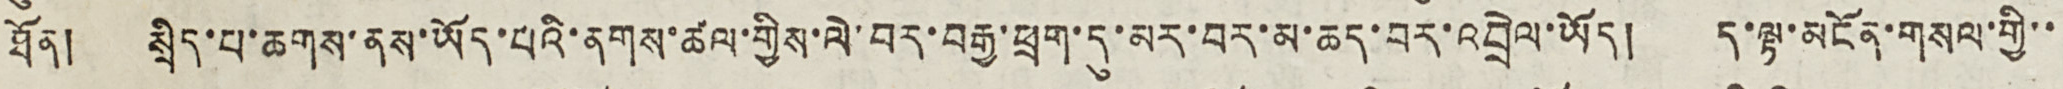ཐོན། སྲིད་པ་ཆགས་ནས་ཡོད་པའི་ནགས་ཚལ་གྱིས་ལེ་བར་བརྒྱ་ཕྲག་དུ་མར་བར་མ་ཆད་བར་འབྲེལ་ཡོད། ད་ལྟ་མངོན་གསལ་གྱི་་
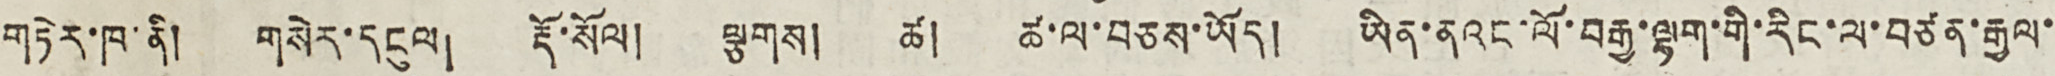གཏེར་ཁ་ནི། གསེར་དངུལ། རྡོ་སོལ། ལྕགས། ཚ། ཚ་ལ་བཅས་ཡོད། ཡིན་ནའང་ལོ་བརྒྱ་ལྷག་གི་རིང་ལ་བཙན་རྒྱལ་
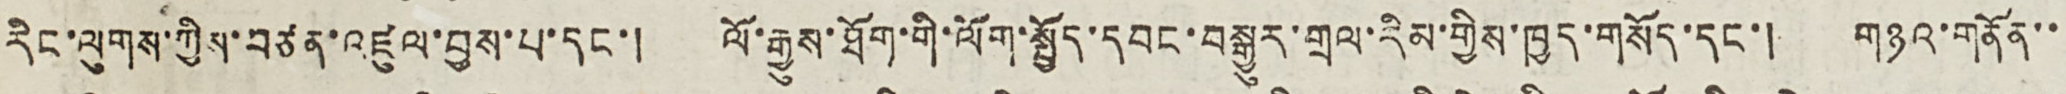རིང་ལུགས་ཀྱིས་བཙན་འཛུལ་བྱས་པ་དང་། ལོ་རྒྱུས་ཐོག་གི་ལོག་སྤྱོད་དབང་བསྒྱུར་གྲལ་རིམ་གྱིས་ཁྱད་གསོད་དང་། གཉའ་གནོན་་
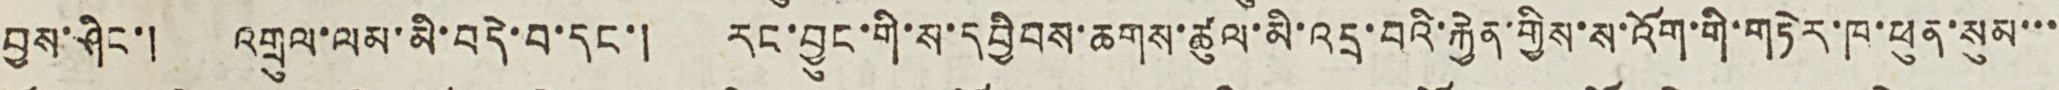བྱས་ཤིང་། འགྲུལ་ལམ་མི་བདེ་བ་དང་། རང་བྱུང་གི་ས་དབྱིབས་ཆགས་ཚུལ་མི་འདྲ་བའི་རྐྱེན་གྱིས་ས་འོག་གི་གཏེར་ཁ་ཕུན་སུམ་་་
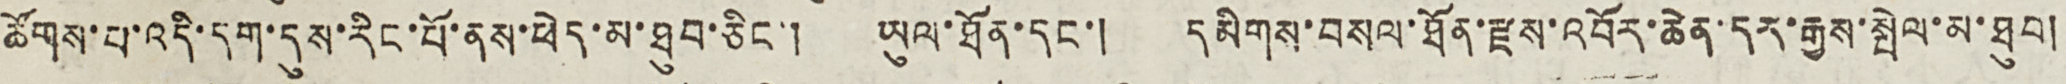ཚོགས་པ་འདི་དག་དུས་རིང་པོ་ནས་ཕེད་མ་ཐུབ་ཅིང་། ཡུལ་ཐོན་དང་། དམིགས་བསལ་ཐོན་རྫས་འབོར་ཆེན་དར་རྒྱས་སྤེལ་མ་ཐུབ།
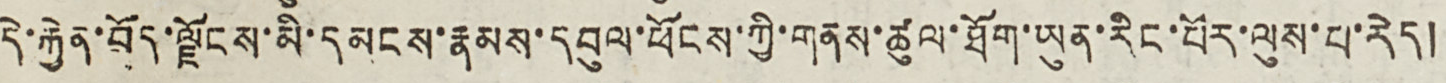དེ་རྐྱེན་བོད་ལྗོངས་མི་དམངས་རྣམས་དབུལ་ཕོངས་ཀྱི་གནས་ཚུལ་ཐོག་ཡུན་རིང་པོར་ལུས་པ་རེད།
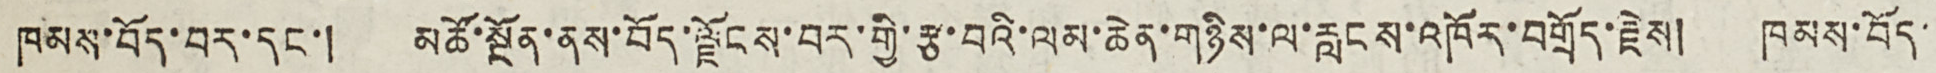ཁམས་བོད་བར་དང་། མཚོ་སྔོན་ནས་བོད་ལྗོངས་བར་གྱི་རྩ་བའི་ལམ་ཆེན་གཉིས་ལ་རླངས་འཁོར་བགྲོད་རྗེས། ཁམས་བོད་
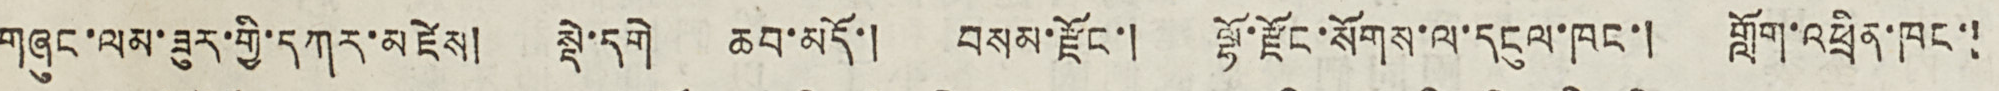གཞུང་ལམ་ཟུར་གྱི་དཀར་མཛེས། སྡེ་དགེ ཆབ་མདོ་། བསམ་རྫོང་། ལྷོ་རྫོང་སོགས་ལ་དངུལ་ཁང་། གློག་འཕྲིན་ཁང་།
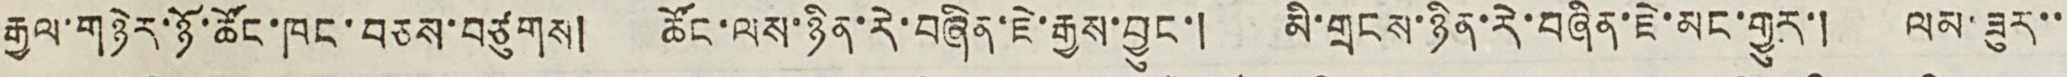རྒྱལ་གཉེར་ཉོ་ཚོང་ཁང་བཅས་བཙུགས། ཚོང་ལས་ཉིན་རེ་བཞིན་ཇེ་རྒྱས་བྱུང་། མི་གྲགས་ཉིན་རེ་བཞིན་ཇེ་མང་གྱུར་། ལམ་ཟུར་་
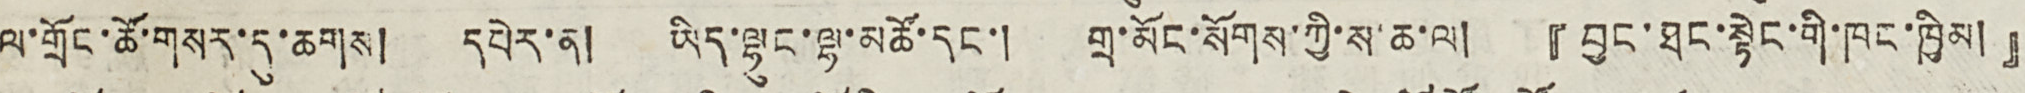ལ་གྲོང་ཚོ་གསར་དུ་ཆགས། དཔེར་ན། ཡིད་ལྷུང་ལྷ་མཚོ་དང་། གྲ་མོང་སོགས་ཀྱི་ས་ཆ་ལ། 『བྱང་ཐང་སྟེང་གི་ཁང་ཁྱིམ།』
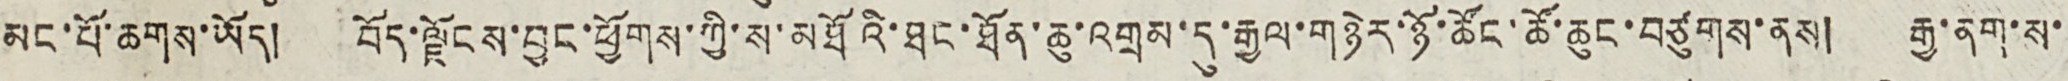མང་པོ་ཆགས་ཡོད། བོད་ལྗོངས་བྱང་ཕྱོགས་ཀྱི་ས་མཐོའི་ཐང་ཐོན་ཆུ་འགྲམ་དུ་རྒྱལ་གཉེར་ཉོ་ཚོང་ཚོ་ཆུང་བཙུགས་ནས། རྒྱ་ནག་ས་
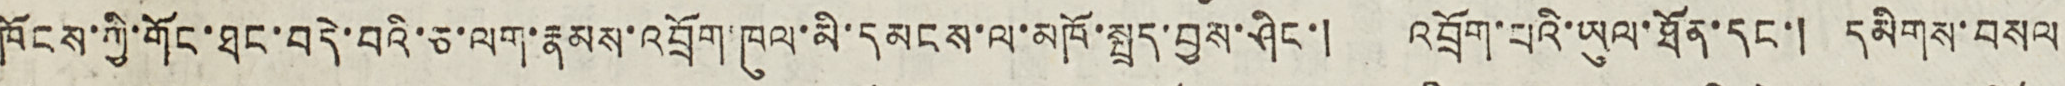ཁོངས་ཀྱི་གོང་ཐང་བདེ་བའི་ཅ་ལག་རྣམས་འབྲོག་ཁུལ་མི་དམངས་ལ་མཁོ་སྤྲད་བྱས་ཤིང་། འབྲོག་པའི་ཡུལ་ཐོན་དང་། དམིགས་བསལ
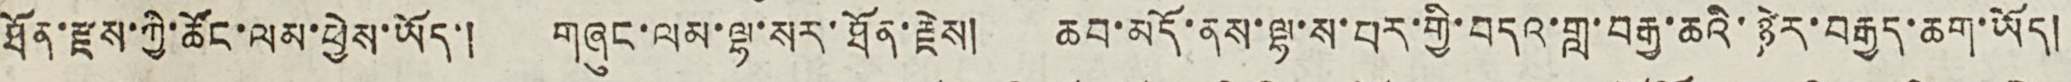ཐོན་རྫས་ཀྱི་ཚོང་ལམ་ཕྱེས་ཡོད་། གཞུང་ལམ་ལྷ་སར་ཐོན་རྗེས། ཆབ་མདོ་ནས་ལྷ་ས་བར་གྱི་བདའ་གླ་བརྒྱ་ཆའི་ཉེར་བརྒྱད་ཆག་ཡོད།
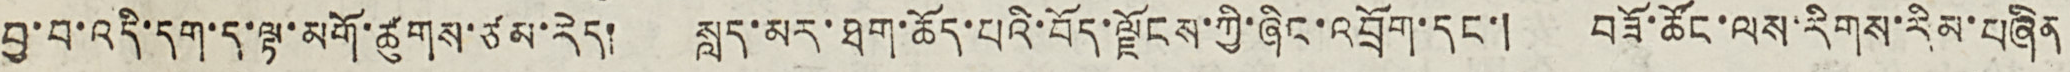བྱ་བ་འདི་དག་ད་ལྟ་མགོ་ཚུགས་ཙམ་རེད། སླད་མར་ཐག་ཆོད་པའི་བོད་ལྗོངས་ཀྱི་ཞིང་འབྲོག་དང་། བཟོ་ཚོང་ལས་རིགས་རིམ་བཞིན
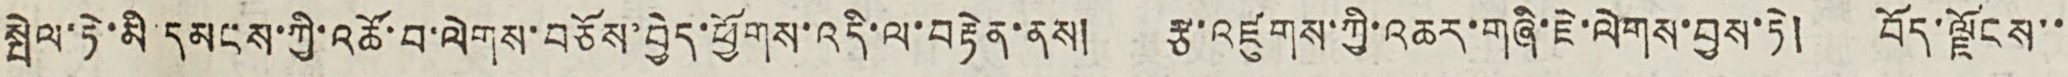སྤེལ་ཏེ་མི་དམངས་ཀྱི་འཚོ་བ་ལེགས་བཅོས་བྱེད་ཕྱོགས་འདི་ལ་བརྟེན་ནས། རྩ་འཛུགས་ཀྱི་འཆར་གཞི་ཇེ་ལེགས་བྱས་ཏེ། བོད་ལྗོངས་་
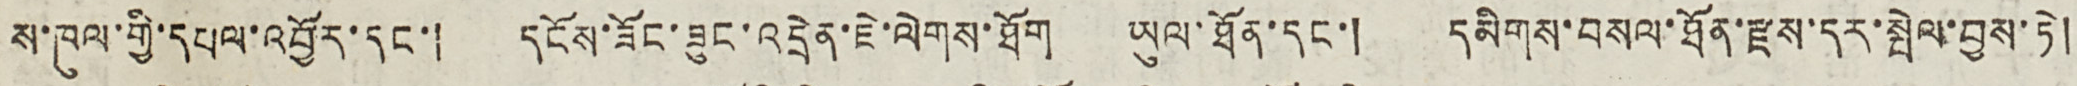ས་ཁུལ་གྱི་དཔལ་འབྱོར་དང་། དངོས་ཟོང་ཟུང་འདྲེན་ཇེ་ལེགས་ཐོག ཡུལ་ཐོན་དང་། དམིགས་བསལ་ཐོན་རྫས་དར་སྤེལ་བྱས་ཏེ།
